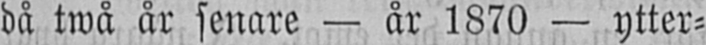då twå år senare — är 1870 — ytter-
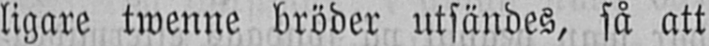ligare twenne bröder utsändes, så att
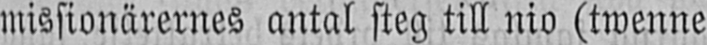missionärernes antal steg till nio (twenne
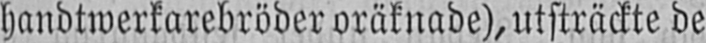handtwerkarebröder oräknade), utsträckte de
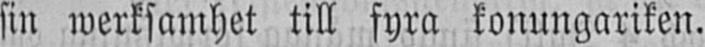sin werksamhet till fyra konungariken.
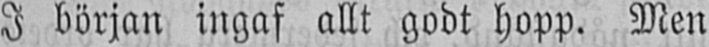I början ingaf allt godt hopp. Men
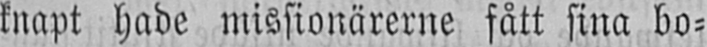knapt hade missionärerne fått sina bo-
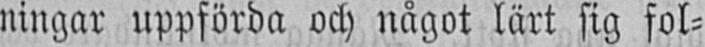ningar uppförda och något lärt sig fol-
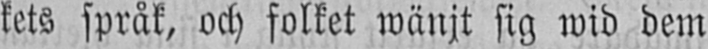kets språk, och folket wänjt sig wid dem
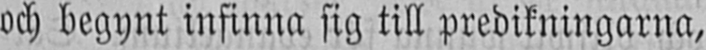och begynt infinna sig till predikningarna,
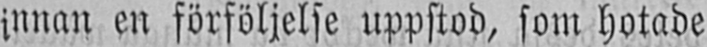innan en förföljelse uppstod, som hotade
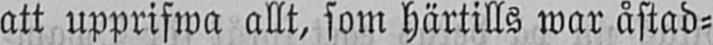att upprifwa allt, som härtills war åstad-
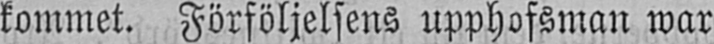kommet. Förföljelsens upphofsman war
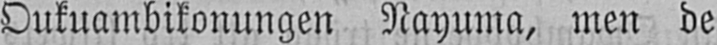Oukuambikonungen Nayuma, men de
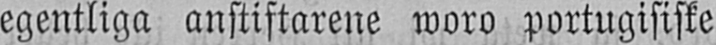egentliga anstiftarene woro portugisiske
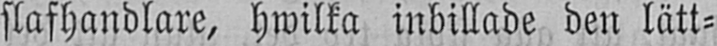slafhandlare, hwilka inbillade den lätt-
